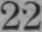22
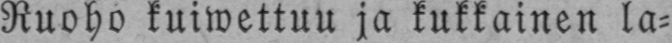Ruoho kuiwettuu ja kukkainen la-
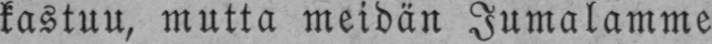kastuu, mutta meidän Jumalamme
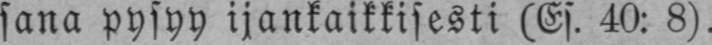sana pysyy ijankaikkisesti (Es. 40: 8).
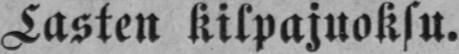Lasten Kilpajuoksu.
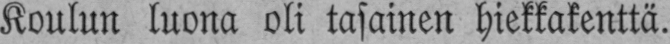Koulun luona oli tasainen hiekkakenttä.
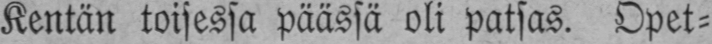Kentän toisessa päässä oli patsas. Opet-
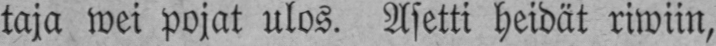taja wei pojat ulos. Asetti heidät riwiin,
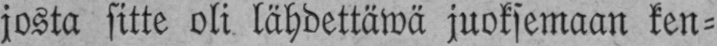josta sitte oli lähdettäwä juoksemaan ken-
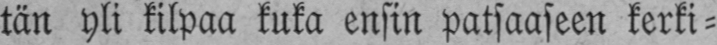tän yli kilpaa kuka ensin patsaaseen kerki-
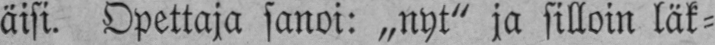äisi. Opettaja sanoi: „nyt" ja silloin läk-
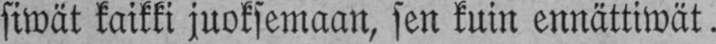siwät kaikki juoksemaan, sen kuin ennättiwät.
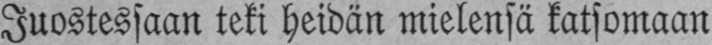Juostessaan teki heidän mielensä katsomaan
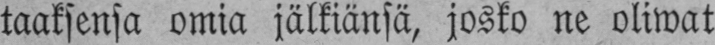taaksensa omia jälkiänsä, josko ne oliwat
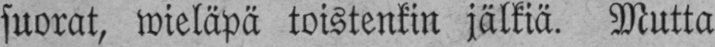suorat, wieläpä toistenkin jälkiä. Mutta
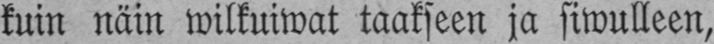kuin näin wilkuiwat taakseen ja siwulleen,
